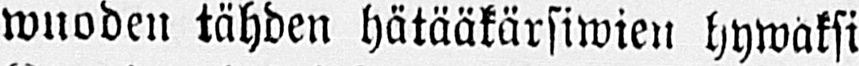wuoden lähden hätääkärsiwien hywäksi
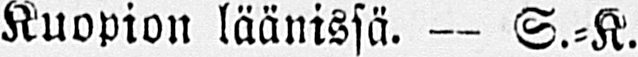Kuopion läänissä. — S.-K.
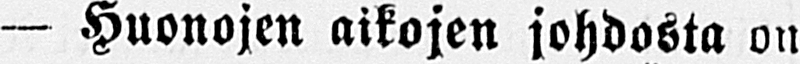— Huonojen aikojen johdosta on
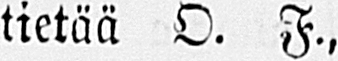tietää O. F.,
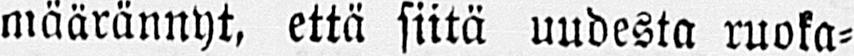määrännyt, että siitä uudesta ruoka-
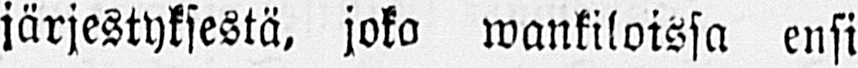järjestyksestä, joka wankiloissa ensi
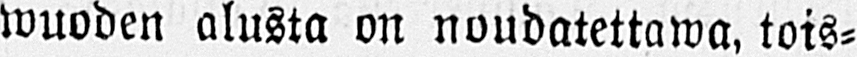wuoden alusta on noudatettawa, tois-
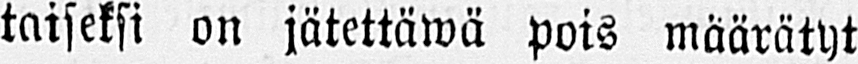taiseksi on jätettäwä pois määrätyt
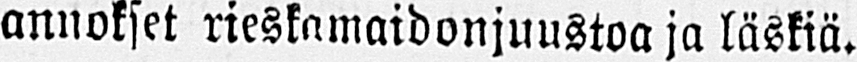annokset rieskamaidonjuustoa ja läskiä.
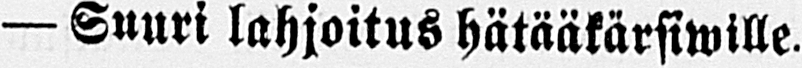— Suuri lahjoitus hätääkärsiwille.
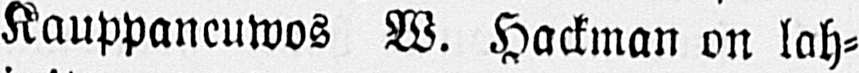Kauppaneuwos W. Hackman on lah-
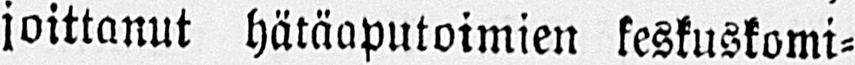joittanut hätäaputoimien keskuskomi-
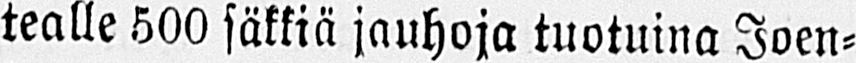tealle 500 säkkiä jauhoja tuotuina Joen-
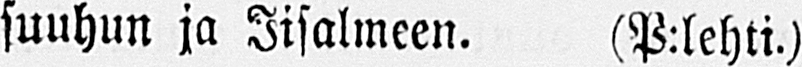suuhun ja Iisalmeen. (P:lehti.)
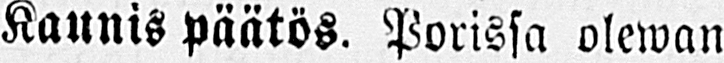Kaunis päätös. Porissa olewan
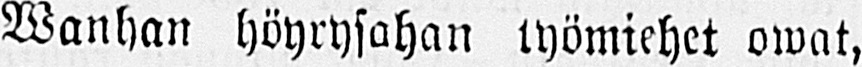Wanhan höyrysahan työmiehet owat,
